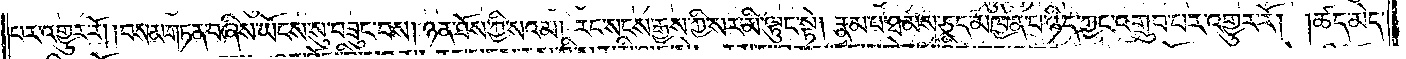པར་འགྱུར་རོ། །བསམ་གཏན་བཞིས་ཡོངས་སུ་བཟུང་བས། ཉན་ཐོས་ཀྱི་སའམ། རང་སངས་རྒྱས་ཀྱི་སར་མི་ལྟུང་སྟེ། རྣམ་པ་ཐམས་ཅད་མཁྱེན་པ་ཉིད་ཀྱང་འགྲུབ་པར་འགྱུར་རོ། །ཚད་མེད་
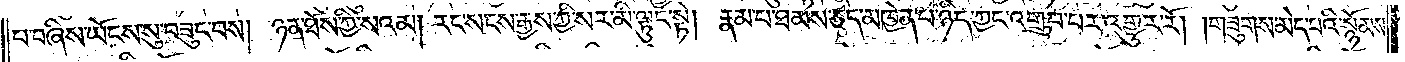པ་བཞིས་ཡོངས་སུ་བཟུང་བས། ཉན་ཐོས་ཀྱི་སའམ། རང་སངས་རྒྱས་ཀྱི་སར་མི་ལྟུང་སྟེ། རྣམ་པ་ཐམས་ཅད་མཁྱེན་པ་ཉིད་ཀྱང་འགྲུབ་པར་འགྱུར་རོ། །གཟུགས་མེད་པའི་སྙོམས་
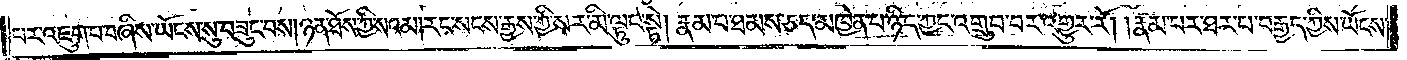པར་འཇུག་པ་བཞིས་ཡོངས་སུ་བཟུང་བས། ཉན་ཐོས་ཀྱི་སའམ། རང་སངས་རྒྱས་ཀྱི་སར་མི་ལྟུང་སྟེ། རྣམ་པ་ཐམས་ཅད་མཁྱེན་པ་ཉིད་ཀྱང་འགྲུབ་པར་འགྱུར་རོ། །རྣམ་པར་ཐར་པ་བརྒྱད་ཀྱིས་ཡོངས་
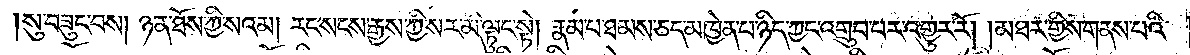སུ་བཟུང་བས། ཉན་ཐོས་ཀྱི་སའམ། རང་སངས་རྒྱས་ཀྱི་སར་མི་ལྟུང་སྟེ། རྣམ་པ་ཐམས་ཅད་མཁྱེན་པ་ཉིད་ཀྱང་འགྲུབ་པར་འགྱུར་རོ། །མཐར་གྱིས་གནས་པའི་
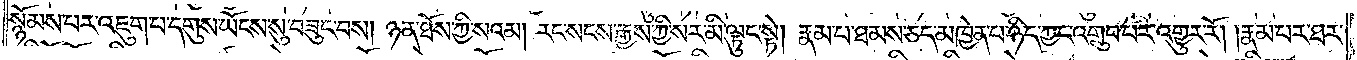སྙོམས་པར་འཇུག་པ་དགུས་ཡོངས་སུ་བཟུང་བས། ཉན་ཐོས་ཀྱི་སའམ། རང་སངས་རྒྱས་ཀྱི་སར་མི་ལྟུང་སྟེ། རྣམ་པ་ཐམས་ཅད་མཁྱེན་པ་ཉིད་ཀྱང་འགྲུབ་པར་འགྱུར་རོ། །རྣམ་པར་ཐར་
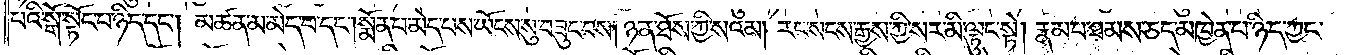པའི་སྒོ་སྟོང་པ་ཉིད་དང༌། མཚན་མ་མེད་པ་དང༌། སྨོན་པ་མེད་པས་ཡོངས་སུ་བཟུང་བས། ཉན་ཐོས་ཀྱི་སའམ། རང་སངས་རྒྱས་ཀྱི་སར་མི་ལྟུང་སྟེ། རྣམ་པ་ཐམས་ཅད་མཁྱེན་པ་ཉིད་ཀྱང་
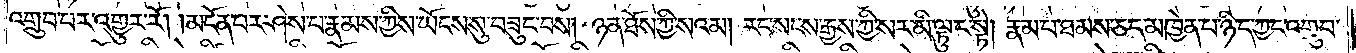འགྲུབ་པར་འགྱུར་རོ། །མངོན་པར་ཤེས་པ་རྣམས་ཀྱིས་ཡོངས་སུ་བཟུང་བས། ཉན་ཐོས་ཀྱི་སའམ། རང་སངས་རྒྱས་ཀྱི་སར་མི་ལྟུང་སྟེ། རྣམ་པ་ཐམས་ཅད་མཁྱེན་པ་ཉིད་ཀྱང་འགྲུབ་
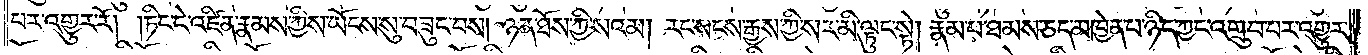པར་འགྱུར་རོ། །ཏིང་ངེ་འཛིན་རྣམས་ཀྱིས་ཡོངས་སུ་བཟུང་བས། ཉན་ཐོས་ཀྱི་སའམ། རང་སངས་རྒྱས་ཀྱི་སར་མི་ལྟུང་སྟེ། རྣམ་པ་ཐམས་ཅད་མཁྱེན་པ་ཉིད་ཀྱང་འགྲུབ་པར་འགྱུར་
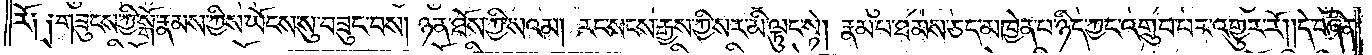རོ། །གཟུངས་ཀྱི་སྒོ་རྣམས་ཀྱིས་ཡོངས་སུ་བཟུང་བས། ཉན་ཐོས་ཀྱི་སའམ། རང་སངས་རྒྱས་ཀྱི་སར་མི་ལྟུང་སྟེ། རྣམ་པ་ཐམས་ཅད་མཁྱེན་པ་ཉིད་ཀྱང་འགྲུབ་པར་འགྱུར་རོ། །དེ་བཞིན་
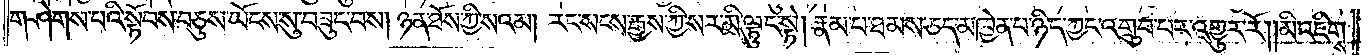གཤེགས་པའི་སྟོབས་བཅུས་ཡོངས་སུ་བཟུང་བས། ཉན་ཐོས་ཀྱི་སའམ། རང་སངས་རྒྱས་ཀྱི་སར་མི་ལྟུང་སྟེ། རྣམ་པ་ཐམས་ཅད་མཁྱེན་པ་ཉིད་ཀྱང་འགྲུབ་པར་འགྱུར་རོ། །མི་འཇིགས་
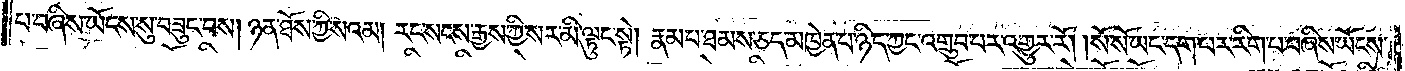པ་བཞིས་ཡོངས་སུ་བཟུང་བས། ཉན་ཐོས་ཀྱི་སའམ། རང་སངས་རྒྱས་ཀྱི་སར་མི་ལྟུང་སྟེ། རྣམ་པ་ཐམས་ཅད་མཁྱེན་པ་ཉིད་ཀྱང་འགྲུབ་པར་འགྱུར་རོ། །སོ་སོ་ཡང་དག་པར་རིག་པ་བཞིས་ཡོངས་
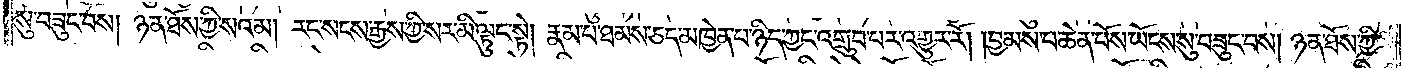སུ་བཟུང་བས། ཉན་ཐོས་ཀྱི་སའམ། རང་སངས་རྒྱས་ཀྱི་སར་མི་ལྟུང་སྟེ། རྣམ་པ་ཐམས་ཅད་མཁྱེན་པ་ཉིད་ཀྱང་འགྲུབ་པར་འགྱུར་རོ། །བྱམས་པ་ཆེན་པོས་ཡོངས་སུ་བཟུང་བས། ཉན་ཐོས་ཀྱི་
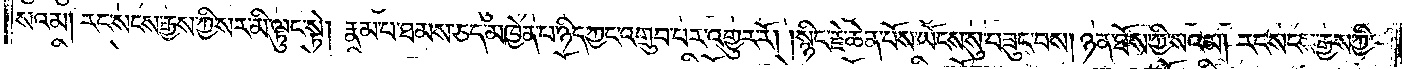སའམ། རང་སངས་རྒྱས་ཀྱི་སར་མི་ལྟུང་སྟེ། རྣམ་པ་ཐམས་ཅད་མཁྱེན་པ་ཉིད་ཀྱང་འགྲུབ་པར་འགྱུར་རོ། །སྙིང་རྗེ་ཆེན་པོས་ཡོངས་སུ་བཟུང་བས། ཉན་ཐོས་ཀྱི་སའམ། རང་སངས་རྒྱས་ཀྱི་
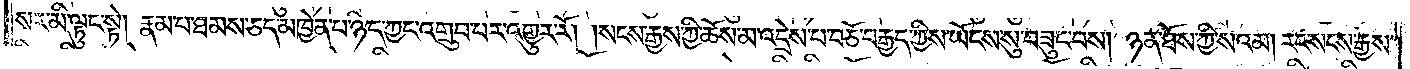སར་མི་ལྟུང་སྟེ། རྣམ་པ་ཐམས་ཅད་མཁྱེན་པ་ཉིད་ཀྱང་འགྲུབ་པར་འགྱུར་རོ། །སངས་རྒྱས་ཀྱི་ཆོས་མ་འདྲེས་པ་བཅོ་བརྒྱད་ཀྱིས་ཡོངས་སུ་བཟུང་བས། ཉན་ཐོས་ཀྱི་སའམ། རང་སངས་རྒྱས་
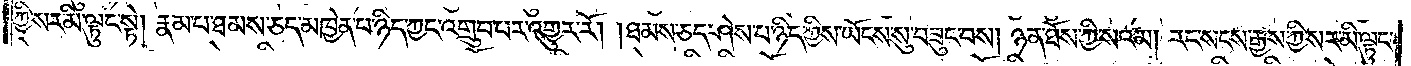ཀྱི་སར་མི་ལྟུང་སྟེ། རྣམ་པ་ཐམས་ཅད་མཁྱེན་པ་ཉིད་ཀྱང་འགྲུབ་པར་འགྱུར་རོ། །ཐམས་ཅད་ཤེས་པ་ཉིད་ཀྱིས་ཡོངས་སུ་བཟུང་བས། ཉན་ཐོས་ཀྱི་སའམ། རང་སངས་རྒྱས་ཀྱི་སར་མི་ལྟུང་
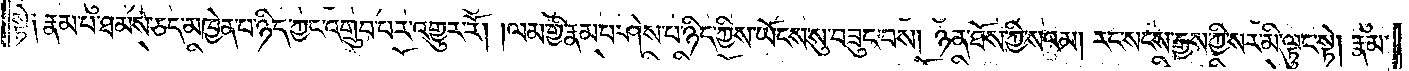སྟེ། རྣམ་པ་ཐམས་ཅད་མཁྱེན་པ་ཉིད་ཀྱང་འགྲུབ་པར་འགྱུར་རོ། །ལམ་གྱི་རྣམ་པ་ཤེས་པ་ཉིད་ཀྱིས་ཡོངས་སུ་བཟུང་བས། ཉན་ཐོས་ཀྱི་སའམ། རང་སངས་རྒྱས་ཀྱི་སར་མི་ལྟུང་སྟེ། རྣམ་
